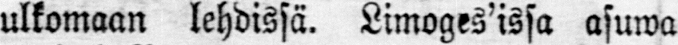ulkomaan lehdissä. Limoges'issa asuwa
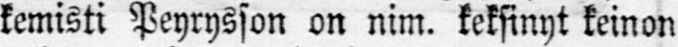kemisti Peyrysson on nim. keksinyt keinon
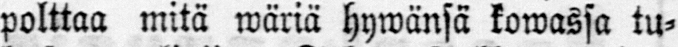polttaa mitä wäriä hywänsä kowassa tu-
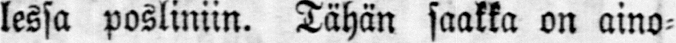lessa posliinin. Tähän saakka on aino-
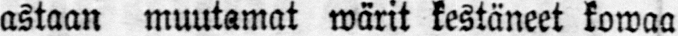astaan muutamat wärit kestäneet kowaa
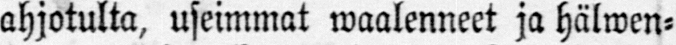ahjotulta, useimmat waalenneet ja hälwen-
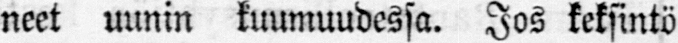neet uunin kuumuudessa. Jos keksintö
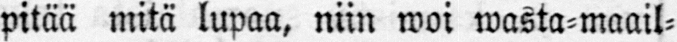pitää mitä lupaa, niin woi wasta-maail-
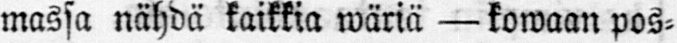massa nähdä kaikkia wäriä — kowaan pos-
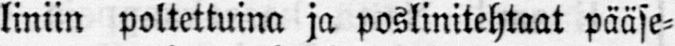liniin poltettuina ja poslinitehtaat pääse-
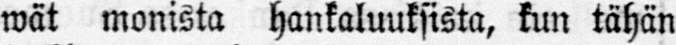wät monista hankaluuksista, kun tähän
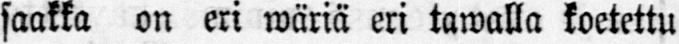saakka on eri wäriä eri tawalla koetettu
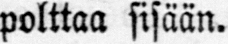polttaa sisään.
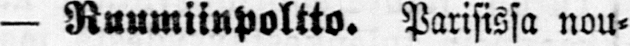— Ruumiinpoltto. Parisissa nou-
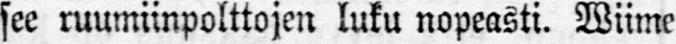see ruumiinpolttojen luku nopeasti. Wiime
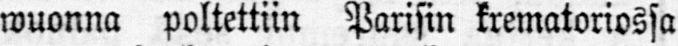wuonna poltettiin Parisin krematoriossa
